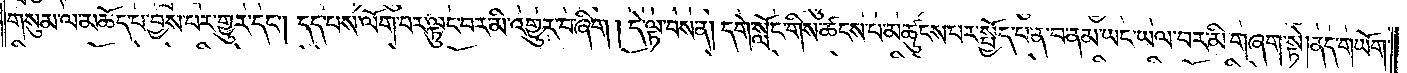གསུམ་ལ་མཆོད་པ་བྱས་པར་གྱུར་དང༌། དད་པས་ལོག་པར་ལྟུང་བར་མི་འགྱུར་བ་ཞིག། དེ་ལྟ་བས་ན། དགེ་སློང་གིས་ཚངས་པ་མཚུངས་པར་སྤྱོད་པ་ན་བ་ནམ་ཡང་ཡལ་བར་མི་གཞག་སྟེ། ནད་གཡོག་
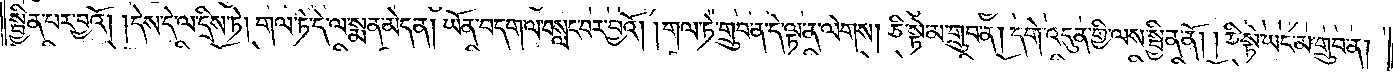སྦྱིན་པར་བྱའོ། །དེས་དེ་ལ་དྲིས་ཏེ། གལ་ཏེ་དེ་ལ་སྨན་མེད་ན། ཡོན་བདག་ལ་བསླང་བར་བྱའོ། །གལ་ཏེ་གྲུབ་ན་དེ་ལྟ་ན་ལེགས། ཅི་སྟེ་མ་གྲུབ་ན། དགེ་འདུན་གྱི་ལས་སྦྱིན་ནོ། །ཅི་སྟེ་ཡང་མ་གྲུབ་ན།
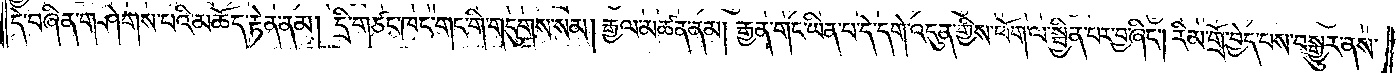དེ་བཞིན་གཤེགས་པའི་མཆོད་རྟེན་ནམ། དྲི་གཙང་ཁང་གང་གི་གདུགས་སམ། རྒྱལ་མཚན་ནམ། རྒྱན་གང་ཡིན་པ་དེ་དགེ་འདུན་གྱིས་ཕོག་ལ་སྦྱིན་པར་བྱ་ཞིང༌། རིམ་གྲོ་བྱེད་པས་བསྒྱུར་ནས་
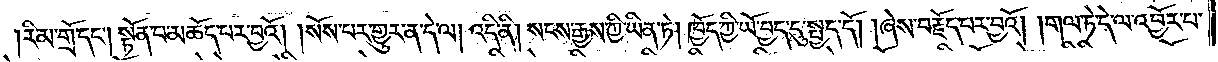།རིམ་གྲོ་དང༌། སྟོན་པ་མཆོད་པར་བྱའོ། །སོས་པར་གྱུར་ན་དེ་ལ། འདི་ནི། སངས་རྒྱས་ཀྱི་ཡིན་ཏེ། ཁྱོད་ཀྱི་ཡོ་བྱད་དུ་སྤྱད་དོ། །ཞེས་བརྗོད་པར་བྱའོ། །གལ་ཏེ་དེ་ལ་འབྱོར་པ་
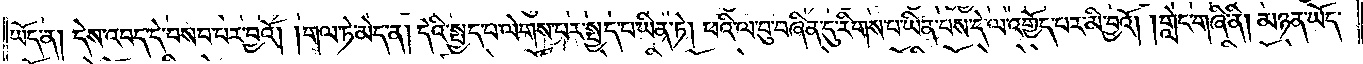ཡོད་ན། དེས་འབད་དེ་བསབ་པར་བྱའོ། །གལ་ཏེ་མེད་ན། དེའི་སྤྱད་པ་ལེགས་པར་སྤྱད་པ་ཡིན་ཏེ། ཕའི་ལ་བུ་བཞིན་དུ་རིགས་པ་ཡིན་པས་དེ་ལ་འགྱོད་པར་མི་བྱའོ། །གླེང་གཞི་ནི། མཉན་ཡོད་
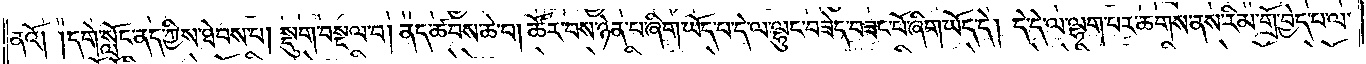ནའོ། །དགེ་སློང་ནད་ཀྱིས་ཐེབས་པ། སྡུག་བསྔལ་བ། ནད་ཚབས་ཆེ་བ། ཚོར་བས་ཉེན་པ་ཞིག་ཡོད་པ་དེ་ལ་ལྷུང་བཟེད་བཟང་པོ་ཞིག་ཡོད་དེ། དེ་དེ་ལ་ལྷག་པར་ཆགས་ནས་རིམ་གྲོ་བྱེད་པ་ལ་
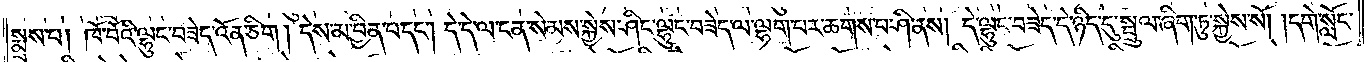སྨྲས་པ། ཁོ་བོའི་ལྷུང་བཟེད་འོན་ཅིག། དེས་མ་བྱིན་པ་དང༌། དེ་དེ་ལ་ངན་སེམས་སྐྱེས་ཤིང་ལྷུང་བཟེད་ལ་ལྷག་པར་ཆགས་པ་ཤི་ནས། དེ་ལྷུང་བཟེད་དེ་ཉིད་དུ་སྦྲུལ་ཞིག་ཏུ་སྐྱེས་སོ། །དགེ་སློང་
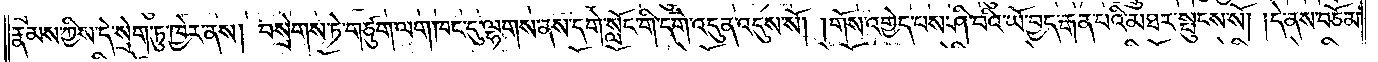རྣམས་ཀྱིས་དེ་སྲེག་ཏུ་ཁྱེར་ནས། བསྲེགས་ཏེ་གཙུག་ལག་ཁང་དུ་ལྷགས་ནས་དགེ་སློང་གི་དགེ་འདུན་འདུས་སོ། །གོས་འགྱེད་པས་ཤི་བའི་ཡོ་བྱད་རྒན་པའི་མཐར་སྤུངས་སོ། །དེ་ནས་བཅོམ་
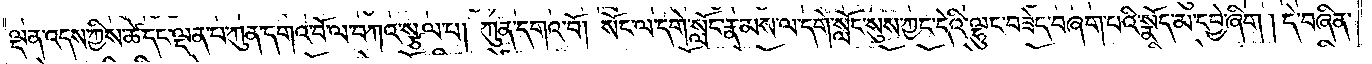ལྡན་འདས་ཀྱིས་ཚེ་དང་ལྡན་པ་ཀུན་དགའ་བོ་ལ་བཀའ་སྩལ་པ། ཀུན་དགའ་བོ། སོང་ལ་དགེ་སློང་རྣམས་ལ་དགེ་སློང་སུས་ཀྱང་དེའི་ལྷུང་བཟེད་བཞག་པའི་སྣོད་མ་དབྱེ་ཞིང༌། དེ་བཞིན་
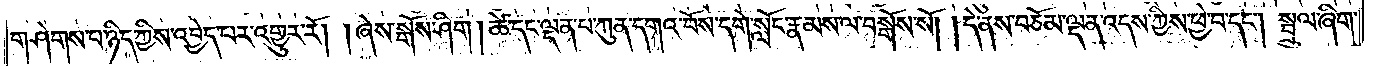གཤེགས་པ་ཉིད་ཀྱིས་འབྱེད་པར་འགྱུར་རོ། །ཞེས་སྒོས་ཤིག། ཚེ་དང་ལྡན་པ་ཀུན་དགའ་བོས་དགེ་སློང་རྣམས་ལ་བསྒོས་སོ། །དེ་ནས་བཅོམ་ལྡན་འདས་ཀྱིས་ཕྱེ་བ་དང༌། སྦྲུལ་ཞིག་
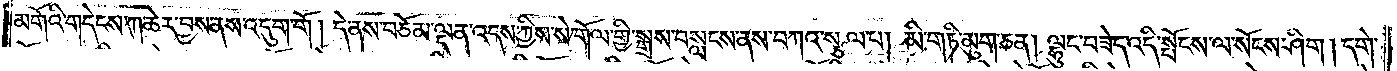མགོའི་གདེངས་ཀ་ཆེར་བྱས་ནས་འདུག་གོ། དེ་ནས་བཅོམ་ལྡན་འདས་ཀྱིས་སེ་གོལ་གྱི་སྒྲས་བསླངས་ནས་བཀའ་སྩལ་པ། མི་གཏི་མུག་ཅན། ལྷུང་བཟེད་འདི་སྤོངས་ལ་སོངས་ཤིག། དགེ་
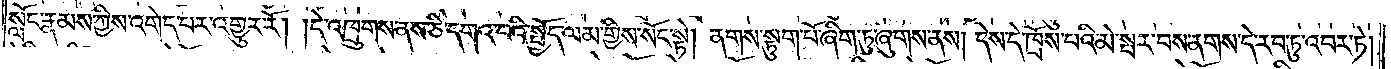སློང་རྣམས་ཀྱིས་འགེད་པར་འགྱུར་རོ། །དེ་འཁྲུགས་ནས་ཅི་དགའ་བའི་སྤྱོད་ལམ་གྱིས་སོང་སྟེ། ནགས་སྟུག་པོ་ཞིག་ཏུ་ཞུགས་ནས། དེས་དེ་ཁྲོས་པའི་མེ་སྦར་བས་ནགས་དེ་རབ་ཏུ་འབར་ཏེ།
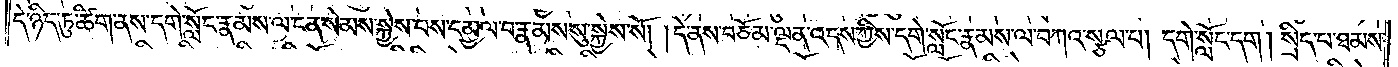དེ་ཉིད་དུ་ཚིག་ནས་དགེ་སློང་རྣམས་ལ་ངན་སེམས་སྐྱེས་པས་དམྱལ་བ་རྣམས་སུ་སྐྱེས་སོ། །དེ་ནས་བཅོམ་ལྡན་འདས་ཀྱིས་དགེ་སློང་རྣམས་ལ་བཀའ་སྩལ་པ། དགེ་སློང་དག། སྲིད་པ་ཐམས་
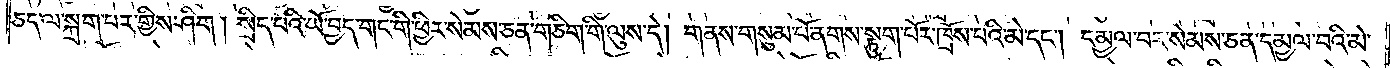ཅད་ལ་སྐྲག་པར་གྱིས་ཤིག། སྲིད་པའི་ཡོ་བྱད་གང་གི་ཕྱིར་སེམས་ཅན་གཅིག་གི་ལུས་དེ། གནས་གསུམ་པོ་ནགས་སྟུག་པོར་ཁྲོས་པའི་མེ་དང༌། དམྱལ་བར་སེམས་ཅན་དམྱལ་བའི་མེ་
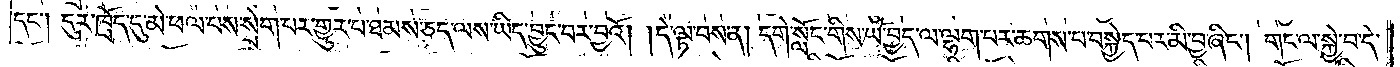དང༌། དུར་ཁྲོད་དུ་མེ་ཕལ་པས་སྲེག་པར་གྱུར་བ་ཐམས་ཅད་ལས་ཡིད་བྱུང་བར་བྱའོ། །དེ་ལྟ་བས་ན། དགེ་སློང་གིས་ཡོ་བྱད་ལ་ལྷག་པར་ཆགས་པ་བསྐྱེད་པར་མི་བྱ་ཞིང༌། གང་ལ་སྐྱེ་བ་དེ་
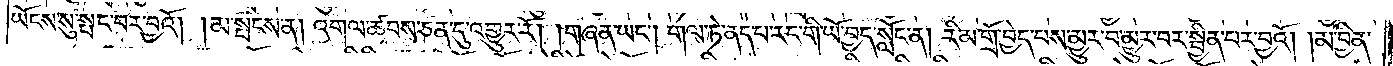ཡོངས་སུ་སྤང་བར་བྱའོ། །མ་སྤངས་ན། འགལ་ཚབས་ཅན་དུ་འགྱུར་རོ། །གཞན་ཡང༌། གལ་ཏེ་ནད་པ་རང་གི་ཡོ་བྱད་སློང་ན། རིམ་གྲོ་བྱེད་པས་མྱུར་བ་མྱུར་བར་སྦྱིན་པར་བྱའོ། །མ་བྱིན་
